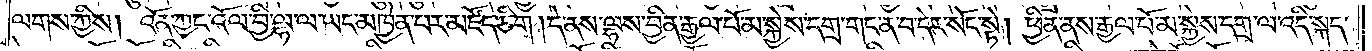ལགས་ཀྱིས། འོན་ཀྱང་འོལ་བྱི་ལྷ་ལ་ཡང་མཁྱེན་པར་མཛོད་ཅིང༌། །དེ་ནས་ལྷས་བྱིན་རྒྱལ་པོ་མ་སྐྱེས་དགྲ་གང་ན་བ་དེར་སོང་སྟེ། ཕྱིན་ནས་རྒྱལ་པོ་མ་སྐྱེས་དགྲ་ལ་འདི་སྐད་
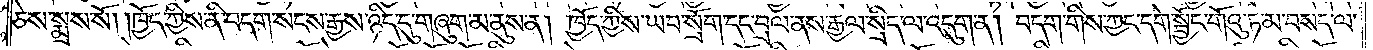ཅེས་སྨྲས་སོ། །ཁྱོད་ཀྱིས་ནི་བདག་སངས་རྒྱས་ཉིད་དུ་གཞུག་མ་ནུས་ན། ཁྱོད་ཀྱིས་ཡབ་སྲོག་དང་བྲལ་ནས་རྒྱལ་སྲིད་ལ་འདུག་ན། བདག་གིས་ཀྱང་དགེ་སྦྱོང་གོའུ་ཏ་མ་བསད་ལ་
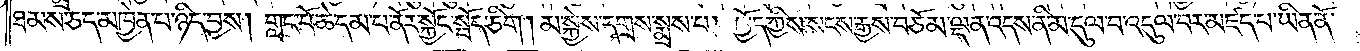ཐམས་ཅད་མཁྱེན་པ་ཉིད་བྱས། གླང་པོ་ཆེ་དམ་པ་ནོར་སྐྱོང་སྤོད་ཅིག །མ་སྐྱེས་དགྲས་སྨྲས་པ། ཁྱོད་ཀྱིས་སངས་རྒྱས་བཅོམ་ལྡན་འདས་ནི་མ་དུལ་བ་འདུལ་བར་མཛད་པ་ཡིན་ནོ།
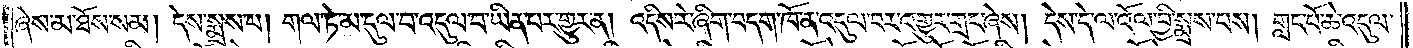ཞེས་མ་ཐོས་སམ། དེས་སྨྲས་པ། གལ་ཏེ་མ་དུལ་བ་འདུལ་བ་ཡིན་པར་གྱུར་ན། འདིས་རེ་ཞིག་བདག་ཁོ་ན་འདུལ་བར་འགྱུར་གྲང་ཞེས། དེས་དེ་ལ་འོལ་བྱི་སྨྲས་པས། གླང་པོ་ཆེ་འདུལ་
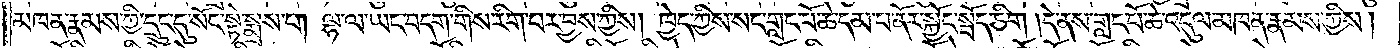མཁན་རྣམས་ཀྱི་དྲུང་དུ་སོང་སྟེ་སྨྲས་པ། ལྷ་ལ་ཡང་བདག་གིས་རིག་པར་བྱས་ཀྱིས། ཁྱེད་ཀྱིས་སང་གླང་པོ་ཆེ་དམ་པ་ནོར་སྐྱོང་སྦོད་ཅིག །དེ་ནས་གླང་པོ་ཆེ་འདུལ་མཁན་རྣམས་ཀྱིས།
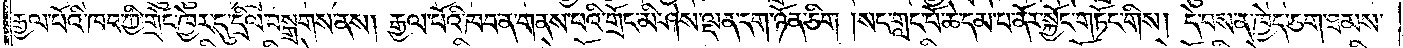རྒྱལ་པོའི་ཁབ་ཀྱི་གྲོང་ཁྱེར་དུ་དྲིལ་བསྒྲགས་ནས། རྒྱལ་པོའི་ཁབ་ན་གནས་པའི་གྲོང་མི་ཤེས་ལྡན་དག་ཉོན་ཅིག །སང་གླང་པོ་ཆེ་དམ་པ་ནོར་སྐྱོང་གཏོང་གིས། དེ་བས་ན་ཁྱེད་ཅག་ཐམས་
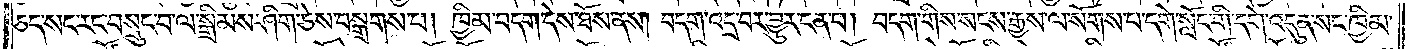ཅད་སང་རང་བསྲུང་བ་ལ་སྒྲིམས་ཤིག་ཅེས་བསྒྲགས་པ། ཁྱིམ་བདག་དེས་ཐོས་ནས། བདག་འདྲ་བར་བྱུར་ངན་པ། བདག་གིས་སངས་རྒྱས་ལ་སོགས་པ་དགེ་སློང་གི་དགེ་འདུན་སང་ཁྱིམ་
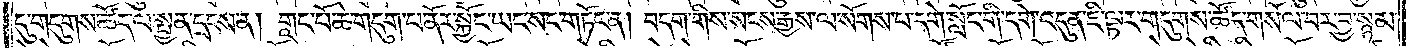དུ་གདུགས་ཚོད་ལ་སྤྱན་དྲངས་ན། གླང་པོ་ཆེ་གདུག་པ་ནོར་སྐྱོང་ཡང་སང་གཏོང་ན། བདག་གིས་སངས་རྒྱས་ལ་སོགས་པ་དགེ་སློང་གི་དགེ་འདུན་ཇི་ལྟར་གདུགས་ཚོད་གསོལ་བར་བྱ་སྙམ་
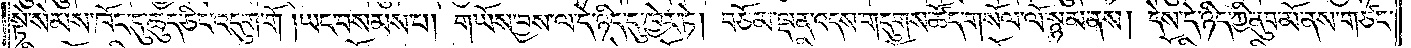སྟེ་སེམས་ཁོང་དུ་ཆུད་ཅིང་འདུག་གོ །ཡང་བསམས་པ། གཡས་བྱས་ལ་དེ་ཉིད་དུ་ཁྱེར་ཏེ། བཅོམ་ལྡན་འདས་གདུགས་ཚོད་གསོལ་ལོ་སྙམ་ནས། དེས་དེ་ཉིད་ཀྱི་ནུབ་མོ་ནས་གཙང་
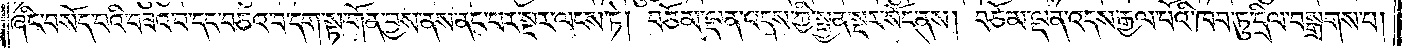ཞིང་བསོད་པའི་བཟའ་བ་དང་བཅའ་བ་དག་སྟ་གོན་བྱས་ནས་ནང་པར་སྔར་ལངས་ཏེ། བཅོམ་ལྡན་འདས་ཀྱི་སྤྱན་སྔར་སོང་ནས། བཅོམ་ལྡན་འདས་རྒྱལ་པོའི་ཁབ་ཏུ་དྲིལ་བསྒྲགས་པ།
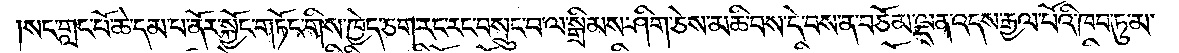།སང་གླང་པོ་ཆེ་དམ་པ་ནོར་སྐྱོང་གཏོང་གིས་ཁྱེད་ཅག་རང་རང་བསྲུང་བ་ལ་སྒྲིམས་ཤིག་ཅེས་མཆི་བས་དེ་བས་ན་བཅོམ་ལྡན་འདས་རྒྱལ་པོའི་ཁབ་ཏུ་མ་
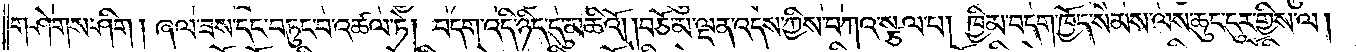གཤེགས་ཤིག། ཞལ་ཟས་དང་བཏུང་བ་འཚལ་ཏེ། བདག་འདི་ཉིད་དུ་མཆིའོ། །བཅོམ་ལྡན་འདས་ཀྱིས་བཀའ་སྩལ་པ། ཁྱིམ་བདག་ཁྱོད་སེམས་ལས་ཆུང་ངུར་གྱིས་ལ།
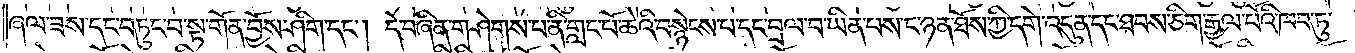ཞལ་ཟས་དང་བཏུང་བ་སྟ་གོན་བྱོས་ཤིག་དང༌། དེ་བཞིན་གཤེགས་པ་ནི་གླང་པོ་ཆེའི་བསྙེངས་པ་དང་བྲལ་བ་ཡིན་པས་ང་ཉན་ཐོས་ཀྱི་དགེ་འདུན་དང་ཐབས་ཅིག་རྒྱལ་པོའི་ཁབ་ཏུ་
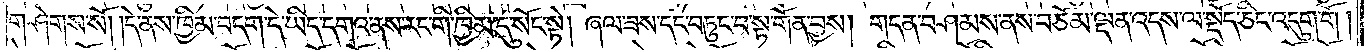གཤེགས་སོ། །དེ་ནས་ཁྱིམ་བདག་དེ་ཡིད་དགའ་ནས་རང་གི་ཁྱིམ་དུ་སོང་སྟེ། ཞལ་ཟས་དང་བཏུང་བ་སྟ་གོན་བྱས། གདན་བཤམས་ནས་བཅོམ་ལྡན་འདས་ལ་སྡོད་ཅིང་འདུག་གོ།
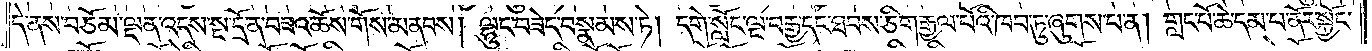དེ་ནས་བཅོམ་ལྡན་འདས་སྔ་དྲོ་ན་བཟའ་ཆོས་གོས་མནབས། ལྷུང་བཟེད་བསྣམས་ཏེ། དགེ་སློང་ལྔ་བརྒྱ་དང་ཐབས་ཅིག་རྒྱལ་པོའི་ཁབ་ཏུ་ཞུགས་པ་ན། གླང་པོ་ཆེ་དམ་པ་ནོར་སྐྱོང་
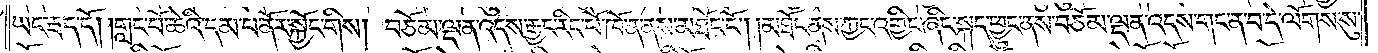ཡང་རྦད་དོ། །གླང་པོ་ཆེའི་དམ་པ་ནོར་སྐྱོང་གིས། བཅོམ་ལྡན་འདས་རྒྱང་རིང་པོ་ཁོ་ན་ནས་མཐོང་ངོ༌། །མཐོང་ནས་ཀྱང་འགྱིང་ཞིང་སྐད་ཕྱུང་ནས་བཅོམ་ལྡན་འདས་གང་ན་བ་དེ་ལོགས་སུ་
